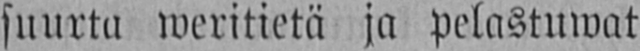suurta weritietä ja pelastuwat
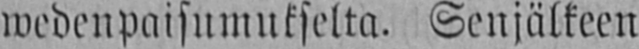wedenpaisnmukselta. Senjälkeen
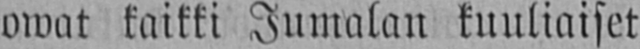owat kaikki Jumalan kuuliaiset
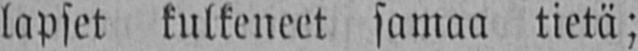lapset kulkeneet samaa tietä;
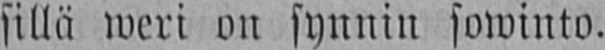sillä weri on synnin sowinto.
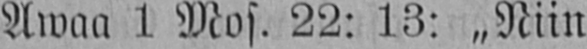Awaa 1 Mos. 22: 13: „Niin
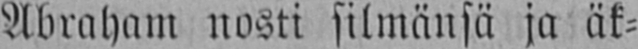Abraham nosti silmänsä ja äk-
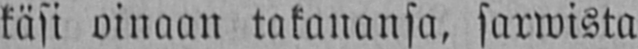käsi oinaan takanansa, sarwista
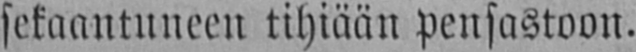sekaantuneen tihiään Pensastoon.
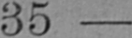35
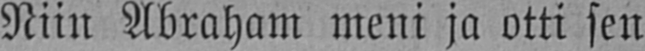Niin Abraham meni ja otti sen
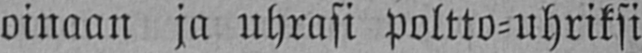oinaan ja uhrasi Poltto-uhriksi
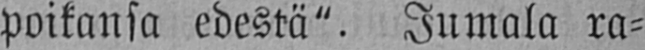Poikansa edestä". Jumala ra-
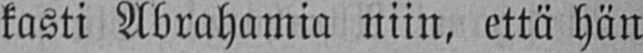kasti Abrahamia niin, että hän
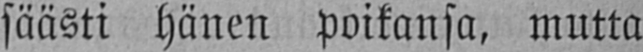säästi hänen poikansa, mutta
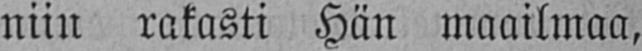niin rakasti Hän maailmaa,
